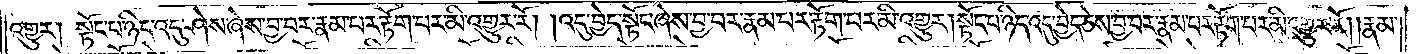འགྱུར། སྟོང་པ་ཉིད་འདུ་ཤེས་ཞེས་བྱ་བར་རྣམ་པར་རྟོག་པར་མི་འགྱུར་རོ། །འདུ་བྱེད་སྟོང་ཞེས་བྱ་བར་རྣམ་པར་རྟོག་པར་མི་འགྱུར། སྟོང་པ་ཉིད་འདུ་བྱེད་ཅེས་བྱ་བར་རྣམ་པར་རྟོག་པར་མི་འགྱུར་རོ། །རྣམ་
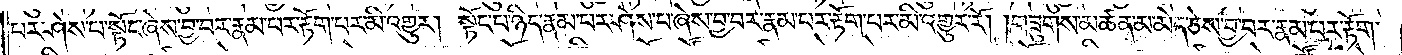པར་ཤེས་པ་སྟོང་ཞེས་བྱ་བར་རྣམ་པར་རྟོག་པར་མི་འགྱུར་རོ། །སྟོང་པ་ཉིད་རྣམ་པར་ཤེས་པ་ཞེས་བྱ་བར་རྣམ་པར་རྟོག་པར་མི་འགྱུར་རོ། །གཟུགས་མཚན་མ་མེད་ཅེས་བྱ་བར་རྣམ་པར་རྟོག་
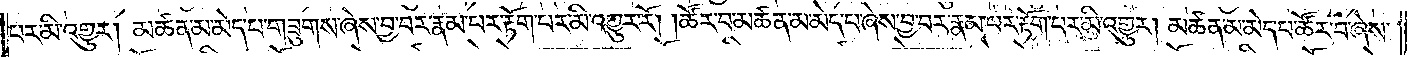པར་མི་འགྱུར། མཚན་མ་མེད་པ་གཟུགས་ཞེས་བྱ་བར་རྣམ་པར་རྟོག་པར་མི་འགྱུར་རོ། །ཚོར་བ་མཚན་མ་མེད་པ་ཞེས་བྱ་བར་རྣམ་པར་རྟོག་པར་མི་འགྱུར། མཚན་མ་མེད་པ་ཚོར་བ་ཞེས་
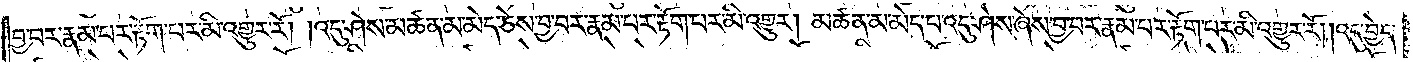བྱ་བར་རྣམ་པར་རྟོག་པར་མི་འགྱུར་རོ། །འདུ་ཤེས་མཚན་མ་མེད་ཅེས་བྱ་བར་རྣམ་པར་རྟོག་པར་མི་འགྱུར། མཚན་མ་མེད་པ་འདུ་ཤེས་ཞེས་བྱ་བར་རྣམ་པར་རྟོག་པར་མི་འགྱུར་རོ། །འདུ་བྱེད་
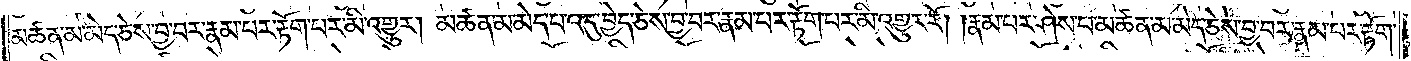མཚན་མ་མེད་ཅེས་བྱ་བར་རྣམ་པར་རྟོག་པར་མི་འགྱུར། མཚན་མ་མེད་པ་འདུ་བྱེད་ཅེས་བྱ་བར་རྣམ་པར་རྟོག་པར་མི་འགྱུར་རོ། །རྣམ་པར་ཤེས་པ་མཚན་མ་མེད་ཅེས་བྱ་བར་རྣམ་པར་རྟོག་
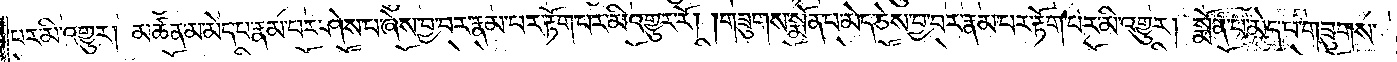པར་མི་འགྱུར། མཚན་མ་མེད་པ་རྣམ་པར་ཤེས་པ་ཞེས་བྱ་བར་རྣམ་པར་རྟོག་པར་མི་འགྱུར་རོ། །གཟུགས་སྨོན་པ་མེད་ཅེས་བྱ་བར་རྣམ་པར་རྟོག་པར་མི་འགྱུར། སྨོན་པ་མེད་པ་གཟུགས་
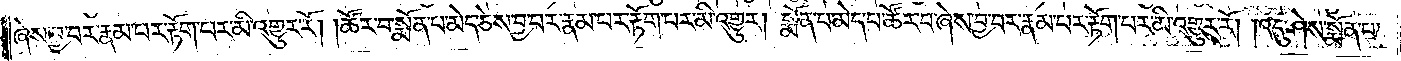ཞེས་བྱ་བར་རྣམ་པར་རྟོག་པར་མི་འགྱུར་རོ། །ཚོར་བ་སྨོན་པ་མེད་ཅེས་བྱ་བར་རྣམ་པར་རྟོག་པར་མི་འགྱུར། སྨོན་པ་མེད་པ་ཚོར་བ་ཞེས་བྱ་བར་རྣམ་པར་རྟོག་པར་མི་འགྱུར་རོ། །འདུ་ཤེས་སྨོན་པ་
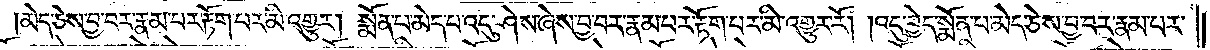མེད་ཅེས་བྱ་བར་རྣམ་པར་རྟོག་པར་མི་འགྱུར། སྨོན་པ་མེད་པ་འདུ་ཤེས་ཞེས་བྱ་བར་རྣམ་པར་རྟོག་པར་མི་འགྱུར་རོ། །འདུ་བྱེད་སྨོན་པ་མེད་ཅེས་བྱ་བར་རྣམ་པར་
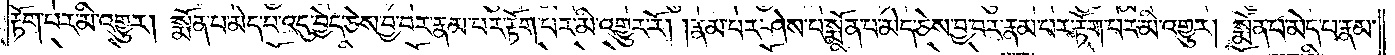རྟོག་པར་མི་འགྱུར། སྨོན་པ་མེད་པ་འདུ་བྱེད་ཅེས་བྱེ་བར་རྣམ་པར་རྟོག་པར་མི་འགྱུར་རོ། །རྣམ་པར་ཤེས་པ་སྨོན་པ་མེད་ཅེས་བྱ་བར་རྣམ་པར་རྟོག་པར་མི་འགྱུར། སྨོན་པ་མེད་པ་རྣམ་
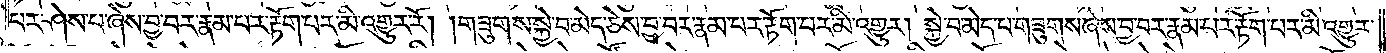པར་ཤེས་པ་ཞེས་བྱ་བར་རྣམ་པར་རྟོག་པར་མི་འགྱུར་རོ། །གཟུགས་སྐྱེ་བ་མེད་ཅེས་བྱ་བར་རྣམ་པར་རྟོག་པར་མི་འགྱུར། སྐྱེ་བ་མེད་པ་གཟུགས་ཞེས་བྱ་བར་རྣམ་པར་རྟོག་པར་མི་འགྱུར་
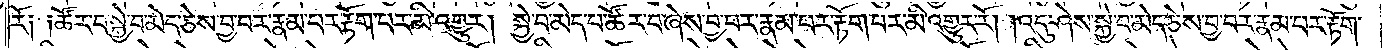རོ༏ ༏ཚོར་བ་སྐྱེ་བ་མེད་ཅེས་བྱ་བར་རྣམ་པར་རྟོག་པར་མི་འགྱུར། སྐྱེ་བ་མེད་པ་ཚོར་བ་ཞེས་བྱ་བར་རྣམ་པར་རྟོག་པར་མི་འགྱུར་རོ། །འདུ་ཤེས་སྐྱེ་བ་མེད་ཅེས་བྱ་བར་རྣམ་པར་རྟོག་
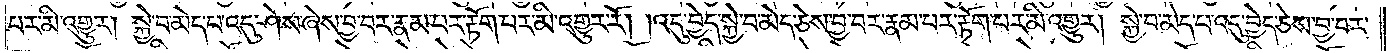པར་མི་འགྱུར། སྐྱེ་བ་མེད་པ་འདུ་ཤེས་ཞེས་བྱ་བར་རྣམ་པར་རྟོག་པར་མི་འགྱུར་རོ། །འདུ་བྱེད་སྐྱེ་བ་མེད་ཅེས་བྱ་བར་རྣམ་པར་རྟོག་པར་མི་འགྱུར། སྐྱེ་བ་མེད་པ་འདུ་བྱེད་ཅེས་བྱ་བར་
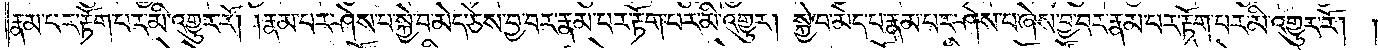རྣམ་པར་རྟོག་པར་མི་འགྱུར་རོ། །རྣམ་པར་ཤེས་པ་སྐྱེ་བ་མེད་ཅེས་བྱ་བར་རྣམ་པར་རྟོག་པར་མི་འགྱུར། སྐྱེ་བ་མེད་པ་རྣམ་པར་ཤེས་པ་ཞེས་བྱ་པར་རྣམ་པ་རྟོག་པར་མི་འགྱུར་རོ། །
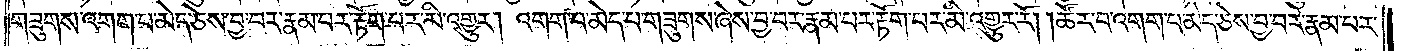གཟུགས་འགག་པ་མེད་ཅེས་བྱ་བར་རྣམ་པར་རྟོག་པར་མི་འགྱུར། འགག་པ་མེད་པ་གཟུགས་ཞེས་བྱ་བར་རྣམ་པར་རྟོག་པར་མི་འགྱུར་རོ། །ཚོར་བ་འགག་པ་མེད་ཅེས་བྱ་བར་རྣམ་པར་
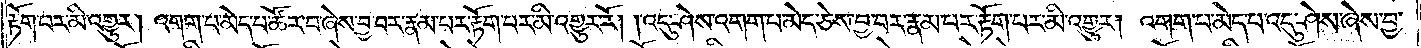རྟོག་པར་མི་འགྱུར། འགག་པ་མེད་པ་ཚོར་བ་ཞེས་བྱ་བར་རྣམ་པར་རྟོག་པར་མི་འགྱུར་རོ། །འདུ་ཤེས་འགག་པ་མེད་ཅེས་བྱ་བར་རྣམ་པར་རྟོག་པར་མི་འགྱུར། འགག་པ་མེད་པ་འདུ་ཤེས་ཞེས་བྱ་
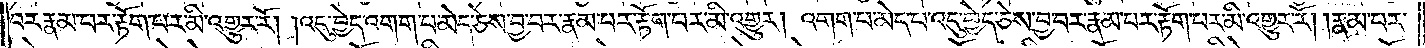བར་རྣམ་པར་རྟོག་པར་མི་འགྱུར་རོ། །འདུ་བྱེད་འགག་པ་མེད་ཅེས་བྱ་བར་རྣམ་པར་རྟོག་པར་མི་འགྱུར། འགག་པ་མེད་པ་འདུ་བྱེད་ཅེས་བྱ་བར་རྣམ་པར་རྟོག་པར་མི་འགྱུར་རོ། །རྣམ་པར་
